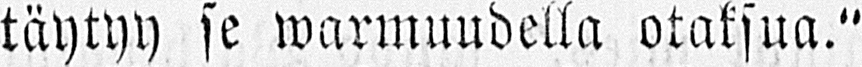täytyy se warmuudella otaksua."
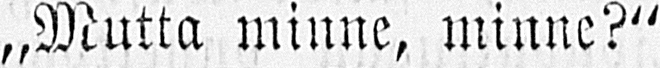„Mutta minne, minne?"
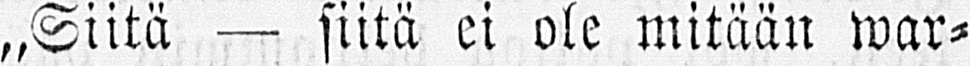„Siitä — siitä ei ole mitään war-
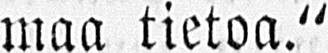maa tietoa."
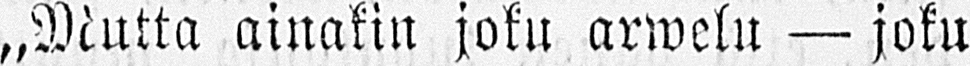„Mutta ainakin joku arwelu — joku
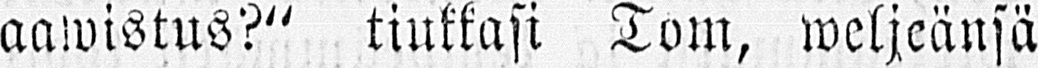aawistus?" tiukkasi Tom, weljeänsä
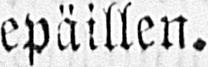epäillen.
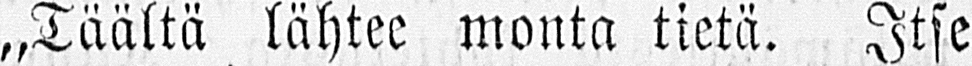„Täältä lähtee monta tietä. Itse
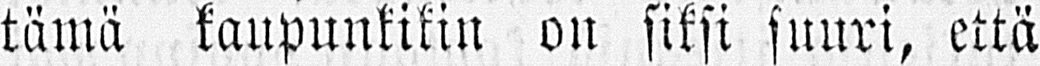tämä kaupunkikin on siksi suuri, että
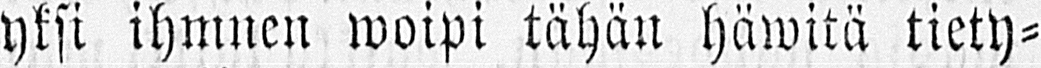yksi ihmnen woipi tähän häwitä tiety-
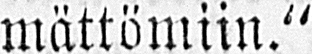mättömiin."
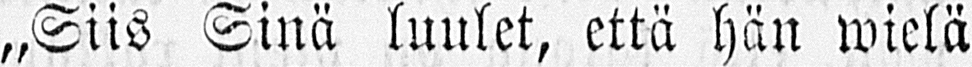„Siis Sinä luulet, että hän wielä
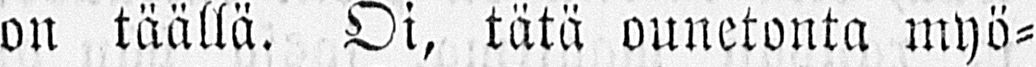on täällä. Oi, tätä onnetonta myö-
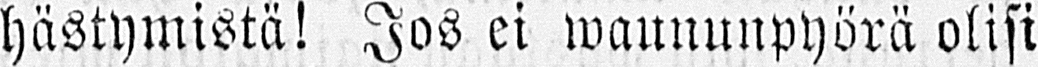hästymistä! Jos ei waununpyörä olisi
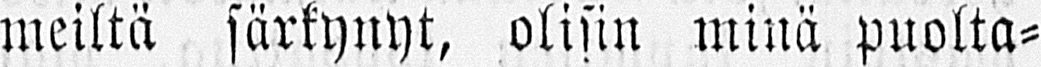meiltä särkynyt, olisin minä puolta-
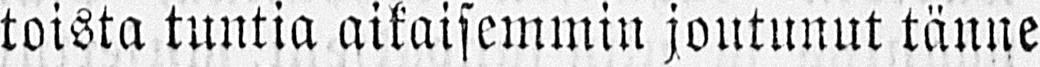toista tuntia aikaisemmin joutunut tänne
